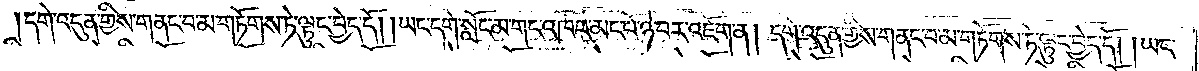དགེ་འདུན་གྱིས་གནང་བ་མ་གཏོགས་ཏེ་ལྟུང་བྱེད་དོ། །ཡང་དགེ་སློང་མ་གང་འཁོར་མང་པོ་ཉེ་བར་འཇོག་ན། དགེ་འདུན་གྱིས་གནང་བ་མ་གཏོགས་ཏེ་ལྟུང་བྱེད་དོ། །ཡང་
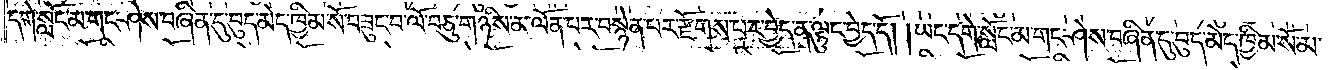དགེ་སློང་མ་གང་ཤེས་བཞིན་དུ་བུད་མེད་ཁྱིམ་སོ་བཟུང་བ་ལོ་བཅུ་གཉིས་མ་ལོན་པར་བསྙེན་པར་རྫོགས་པར་བྱེད་ན་ལྟུང་བྱེད་དོ། །ཡང་དགེ་སློང་མ་གང་ཤེས་བཞིན་དུ་བུད་མེད་ཁྱིམ་སོ་མ་
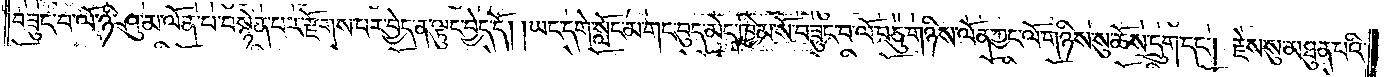བཟུང་བ་ལོ་ཉི་ཤུ་མ་ལོན་པ་བསྙེན་པར་རྫོགས་པར་བྱེད་ན་ལྟུང་བྱེད་དོ། །ཡང་དགེ་སློང་མ་གང་བུད་མེད་ཁྱིམ་སོ་བཟུང་བ་ལོ་བཅུ་གཉིས་ལོན་ཀྱང་ལོ་གཉིས་སུ་ཆོས་དྲུག་དང༌། རྗེས་སུ་མཐུན་པའི་
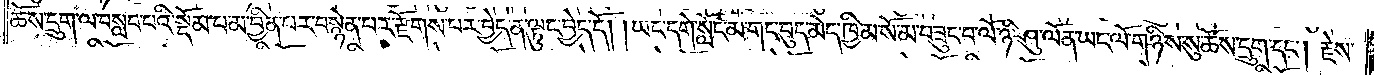ཆོས་དྲུག་ལ་བསླབ་པའི་སྡོམ་པ་མ་བྱིན་པར་བསྙེན་པར་རྫོགས་པར་བྱེད་ན་ལྟུང་བྱེད་དོ། །ཡང་དགེ་སློང་མ་གང་བུད་མེད་ཁྱིམ་སོ་མ་བཟུང་བ་ལོ་ཉི་ཤུ་ལོན་ཡང་ལོ་གཉིས་སུ་ཆོས་དྲུག་དང༌། རྗེས་
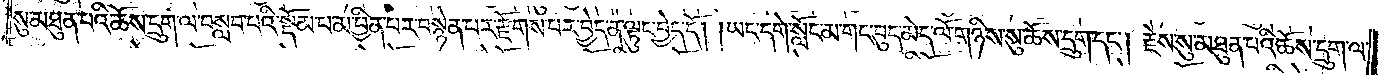སུ་མཐུན་པའི་ཆོས་དྲུག་ལ་བསླབ་པའི་སྡོམ་པ་མ་བྱིན་པར་བསྙེན་པར་རྫོགས་པར་བྱེད་ན་ལྟུང་བྱེད་དོ། །ཡང་དགེ་སློང་མ་གང་བུད་མེད་ལོ་གཉིས་སུ་ཆོས་དྲུག་དང༌། རྗེས་སུ་མཐུན་པའི་ཆོས་དྲུག་ལ་
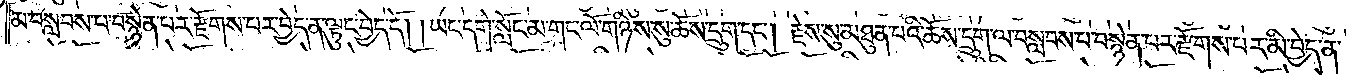མ་བསླབས་པ་བསྙེན་པར་རྫོགས་པར་བྱེད་ན་ལྟུང་བྱེད་དོ། །ཡང་དགེ་སློང་མ་གང་ལོ་གཉིས་སུ་ཆོས་དྲུག་དང༌། རྗེས་སུ་མཐུན་པའི་ཆོས་དྲུག་ལ་བསླབས་པ་བསྙེན་པར་རྫོགས་པར་མི་བྱེད་ན་
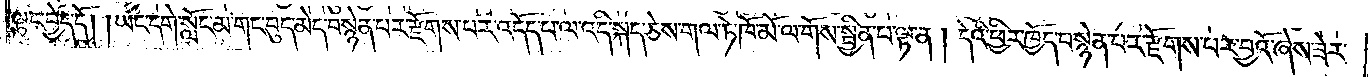ལྟུང་བྱེད་དོ། །ཡང་དགེ་སློང་མ་གང་བུད་མེད་བསྙེན་པར་རྫོགས་པར་འདོད་པ་ལ་འདི་སྐད་ཅེས་གལ་ཏེ་ཁོ་མོ་ལ་གོས་སྦྱིན་པ་ལྟ་ན། དེའི་ཕྱིར་ཁྱོད་བསྙེན་པར་རྫོགས་པར་བྱའོ་ཞེས་ཟེར་
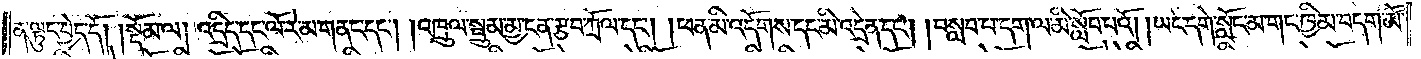ན་ལྟུང་བྱེད་དོ།    །སྡོམ་ལ། འདྲིད་དང་ལོ་རེ་མ་གནང་དང༌། །འཁྲུལ་སྦྲུམ་མྱ་ངན་རྩབ་ཀྲོལ་དང༌། །ཕན་མི་འདོགས་དང་མི་འདྲེན་དང༌། །བསླབ་པ་དག་ལ་མི་སློབ་པའོ། །ཡང་དགེ་སློང་མ་གང་ཁྱིམ་བདག་མོ་
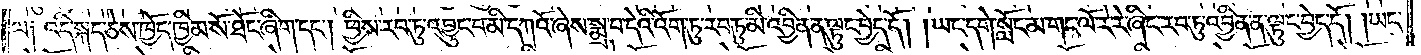ལ༑ འདི་སྐད་ཅེས་ཁྱོད་ཁྱིམ་སོ་ཐོང་ཞིག་དང༌། ཕྱིས་རབ་ཏུ་འབྱུང་བ་མི་དཀའོ་ཞེས་སྨྲ་བ་དེའི་འོག་ཏུ་རབ་ཏུ་མི་འབྱིན་ན་ལྟུང་བྱེད་དོ། །ཡང་དགེ་སློང་མ་གང་ལོ་རེ་རེ་ཞིང་རབ་ཏུ་འབྱིན་ན་ལྟུང་བྱེད་དོ། །ཡང་
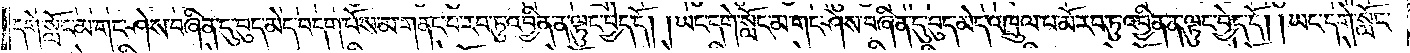དགེ་སློང་མ་གང་ཤེས་བཞིན་དུ་བུད་མེད་བདག་པོས་མ་གནང་བ་རབ་ཏུ་འབྱིན་ན་ལྟུང་བྱེད་དོ། །ཡང་དགེ་སློང་མ་གང་ཤེས་བཞིན་དུ་བུད་མེད་འཁྲུལ་པ་མོ་རབ་ཏུ་འབྱིན་ན་ལྟུང་བྱེད་དོ། །ཡང་དགེ་སློང་
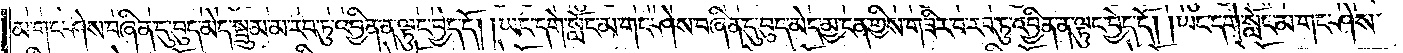མ་གང་ཤེས་བཞིན་དུ་བུད་མེད་སྦྲུམ་མ་རབ་ཏུ་འབྱིན་ན་ལྟུང་བྱེད་དོ། །ཡང་དགེ་སློང་མ་གང་ཤེས་བཞིན་དུ་བུད་མེད་མྱ་ངན་གྱིས་གཟིར་བ་རབ་ཏུ་འབྱིན་ན་ལྟུང་བྱེད་དོ། །ཡང་དགེ་སློང་མ་གང་ཤེས་
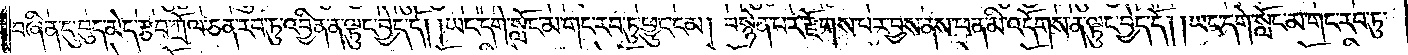བཞིན་དུ་བུད་མེད་རྩབ་ཀྲོལ་ཅན་རབ་ཏུ་འབྱིན་ན་ལྟུང་བྱེད་དོ། །ཡང་དགེ་སློང་མ་གང་རབ་ཏུ་ཕྱུང་ངམ། བསྙེན་པར་རྫོགས་པར་བྱས་ནས་ཕན་མི་འདོགས་ན་ལྟུང་བྱེད་དོ། །ཡང་དགེ་སློང་མ་གང་རབ་ཏུ་
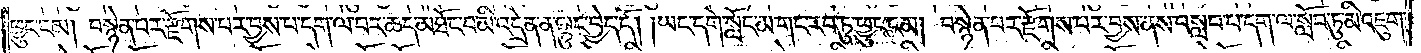ཕྱུང་ངམ། བསྙེན་པར་རྫོགས་པར་བྱས་པ་དག་ལ་བར་ཆད་མཐོང་བ་མི་འདྲེན་ན་ལྟུང་བྱེད་དོ། །ཡང་དགེ་སློང་མ་གང་རབ་ཏུ་ཕྱུང་ངམ། བསྙེན་པར་རྫོགས་པར་བྱས་ནས་བསླབ་པ་དག་ལ་སློབ་ཏུ་མི་འཇུག་
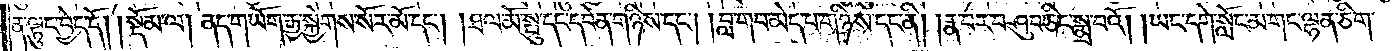ན་ལྟུང་བྱེད་དོ།    །སྡོམ་ལ། ནད་གཡོག་རྒྱ་སྐྱེགས་སོར་མོ་དང༌། །ཐལ་མོ་སྤུ་དང་དབེན་གཉིས་དང༌། །བླ་གབ་མེད་པ་གཉིས་དང་ནི། །རྣ་བར་བཤུབ་ཅིང་སྨྲ་བའོ། །ཡང་དགེ་སློང་མ་གང་ལྷན་ཅིག་
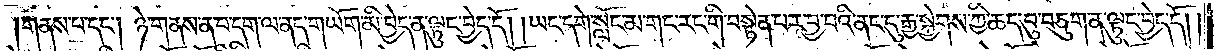གནས་པ་དང༌། ཉེ་གནས་ན་བ་དག་ལ་ནད་གཡོག་མི་བྱེད་ན་ལྟུང་བྱེད་དོ། །ཡང་དགེ་སློང་མ་གང་རང་གི་བསྟེན་པར་བྱ་བའི་ནང་དུ་རྒྱ་སྐྱེགས་ཀྱི་ཆད་བུ་བཅུག་ན་ལྟུང་བྱེད་དོ། །
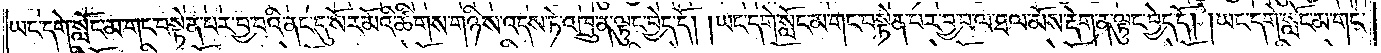ཡང་དགེ་སློང་མ་གང་བསྟེན་པར་བྱ་བའི་ནང་དུ་སོར་མོའི་ཚིགས་གཉིས་འདས་ཏེ་འཁྲུ་ན་ལྟུང་བྱེད་དོ། །ཡང་དགེ་སློང་མ་གང་བསྟེན་པར་བྱ་བ་ལ་ཐལ་མོས་རྡེག་ན་ལྟུང་བྱེད་དོ། །ཡང་དགེ་སློང་མ་གང་
